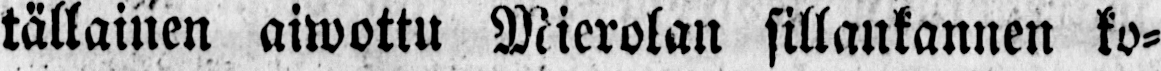tällainen aiwottu Mierolan sillankannen ko-
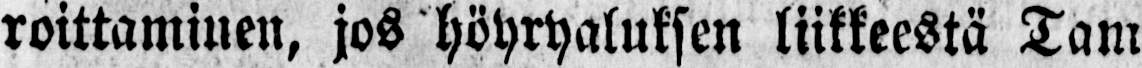roittaminen, jos höyryaluksen liikkeestä Tam-
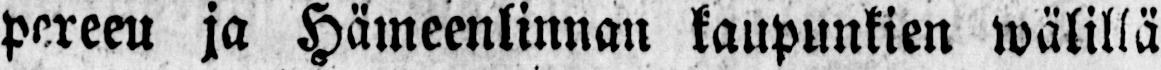pereeu ja Hämeenlinnan kaupunkien wälillä
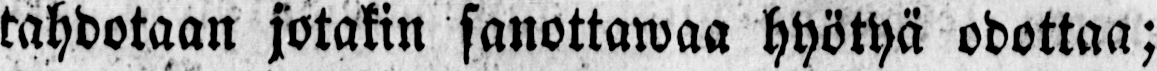tahdotaan jotakin sanottawaa hyötyä odottaa;
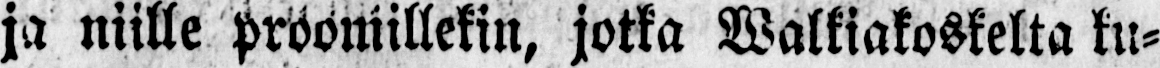ja niille proomillekin, jotka Walkiakoskelta ku-
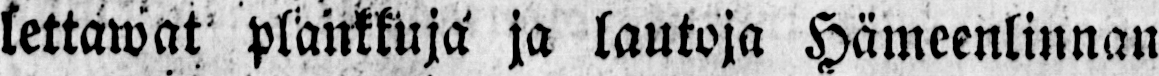lettawat plankkuja ja lautoja Hämeenlinnan
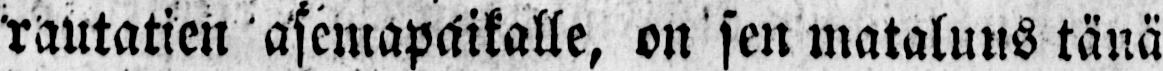rautatien asemapaikalle, on sen mataluus tänä
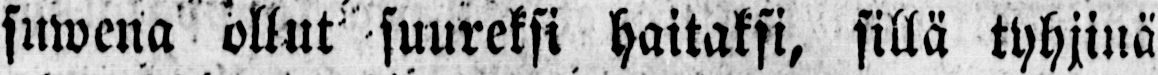suwena ollut suureksi haitaksi, sillä tyhjinä
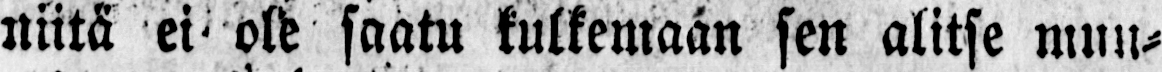niitä ei ole saatu kulkemaan sen alitse muu-
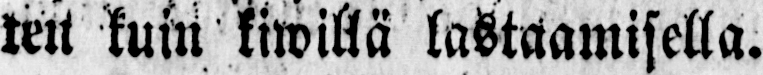ten kuin kiwillä lastaamisella.
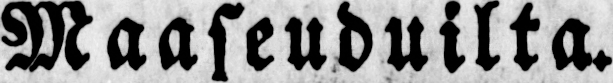Maaseuduilta.
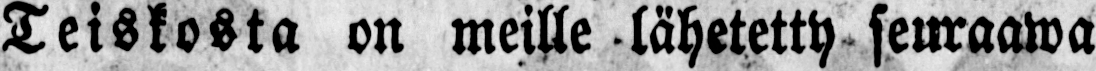Teiskosta on meille lähetetty seuraawa
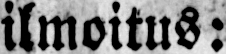ilmoitus:
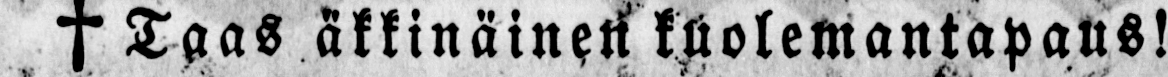† Taas äkkinäinen kuolemantapaus!
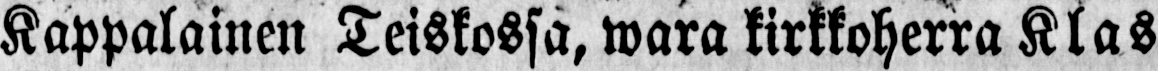Kappalainen Teiskossa, wara kirkkoherra Klas
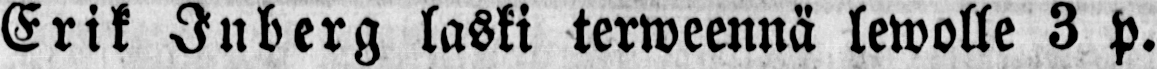Erik Inberg laski terweennä lewolle 3 p.
